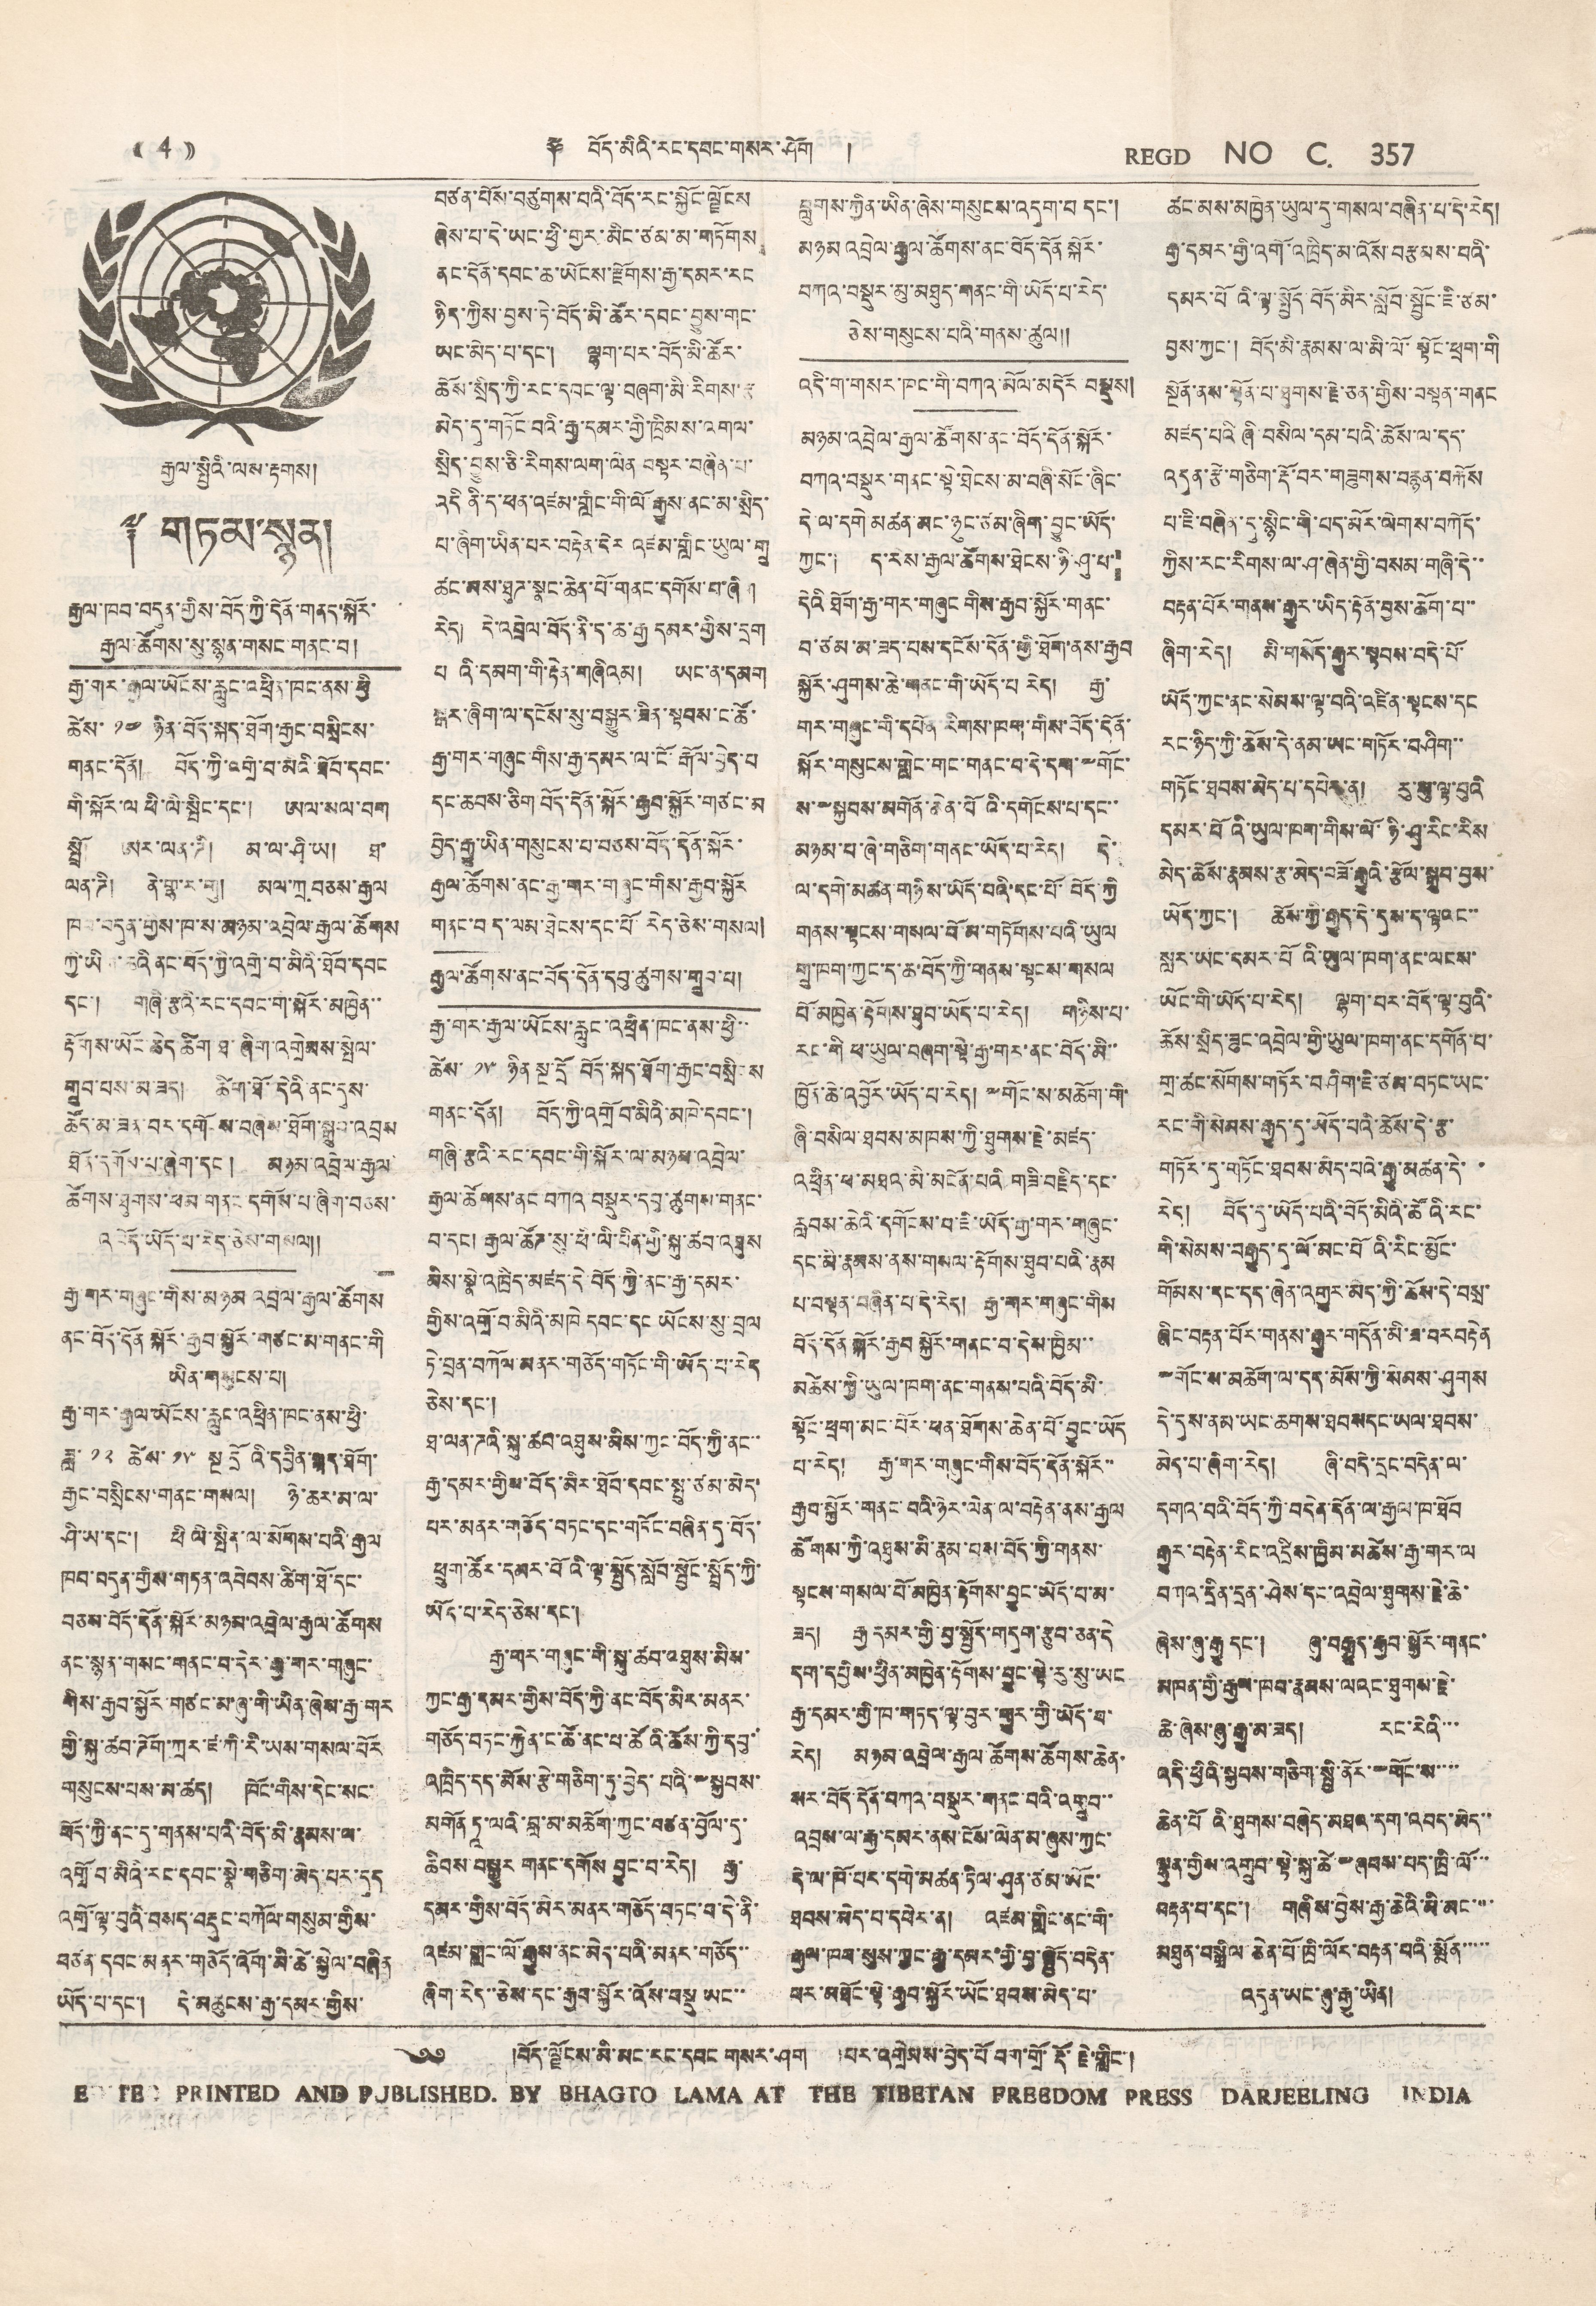(( 4 )) ༈ བོད་མིའི་རང་དབང་གསར་ཤོག ། REGD NO C. 357
རྒྱལ་སྤྱིའི་ལས་རྟགས།
༈ གཏམ་སྙན།
རྒྱལ་ཁབ་བདུན་གྱིས་བོད་ཀྱི་དོན་གནད་སྐོར་
རྒྱལ་ཚོགས་སུ་སྙན་གསང་གནང་བ།
རྒྱ་གར་རྒྱལ་ཡོངས་རླུང་འཕྲིན་ཁང་ནས་ཕྱི
ཚེས་ ༡༤ ཉིན་བོད་སྐད་ཐོག་རྒྱང་བསྲིངས་
གནང་དོན། བོད་ཀྱི་འགྲོ་བ་མིའི་ཐོབ་དབང་
གོ་སྐོར་ལ ཕི་ལི་སྤིང་དང་། ཨལ་སལ་བག
སྤྲོ། ཨར་ལན་ཌི། མ་ལ་ཤི་ཡ། ཐ་
ལན་ཌི། ནེ་གྷ་ར་གུ། མལ་ཀྲ་བཅས་རྒྱལ
ཁབ་བདུན་གྱིས་ཁ་ས་མཉམ་འབྲེལ་རྒྱལ་ཚོགས
ཀྱི་ཡིན་ཆའི་ནང་བོད་ཀྱི་འགྲོ་བ་མིའི་ཐོབ་དབང
དང་། གཞི་རྩའི་རང་དབང་གི་སྐོར་མཁྱེན་་
རྟོགས་ཡོང་ཆེད་ཚིག་ཐ་ཞིག་འགྲེམས་སྤེལ་
གྲུབ་པས་མ་ཟད། ཚིག་ཐོ་དེའི་ནང་དུས་
ཚོད་མ་ཟན་བར་དགོ ས་བཞེས་ཐོག་སྒྲུབ་འབྲས
ཐོན་དགོས་པ་ཞིག་དང ། མཉམ་འབྲེལ་རྒྱལ
ཚོགས་ཐུགས་ཕམ་གནང་དགོས་པ་ཞིག་བཅས་
འཁོད་ཡོད་པ་རེད་ཅེས་གསལ༎
རྒྱ་གར་གཞུང་གིས་མཉམ་འབྲེལ་རྒྱལ་ཚོགས
ནང་བོད་དོན་སྐོར་རྒྱབ་སྐྱོར་གཙང་མ་གནང་གི
ཡིན་གསུངས་པ།
རྒྱ་གར་རྒྱལ་ཡོངས་རླུང་འཕྲིན་ཁང་ནས་ཕྱི་
ཟླ་ ༡༢ ཚེས་ ༡༥ སྔ དྲོའི་དབྱིན་སྐད་ཐོག་
རྒྱང་བསྲིངས་གནང་གསལ། ཉེ་ཆར་མ་ལ་
ཤི་ཡ་དང་། ཕི ལི་སྤིན་ལ་སོགས་པའི་རྒྱལ
ཁབ་བདུན་གྱིས་གཏན་འབེབས་ཚིག་ཐོ་དང་
བཅས་བོད་དོན་སྐོར་མཉམ་འབྲེལ་རྒྱལ་ཚོགས
ནང་སྙན་གསང་གནང་བ་དེར་རྒྱ་གར་གཞུང་
གིས་རྒྱབ་སྐྱོར་གཙང་མ་ཞུ་གི་ཡིན་ཞེས་རྒྱ་གར
གྱི་སྐུ་ཚབ་ཌོག་ཀྲར་ཛ་ཀི་རི་ཡས་གསལ་བོར
གསུངས་པས་མ་ཚད། ཁོང་གིས་དེང་སང་
བོད་ཀྱི་ནང་དུ་གནས་པའི་བོད་མི་རྣམས་ལ་
འགྲོ་བ་མིའི་རང་དབང་སྣེ་གཅིག་མེ་དཔར་དུད
འགྲོ་ལྟ་བུའི་བསད་བརྡུང་བཀོལ་གསུམ་གྱིས་
བཙན་དབང་མནར་གཅོད་འོག་མི་ཚེ་སྐྱེལ་བཞིན
ཡོད་པ་དང་། དེ་མཚུངས་རྒྱ་དམར་གྱིས་
བཙན་པོས་བཙུགས་པའི་བོད་རང་སྐྱོང་ལྗོངས
ཞེས་པ་དེ་ཡང་ཕྱི་གྱར་མིང་ཙམ་མ་གཏོགས
ནང་དོན་དབང་ཆ་ཡོངས་རྫོགས་རྒྱ་དམར་རང་
ཉིད་ཀྱིས་བྱས་ཏེ་བོད་མི་ཚོར་དབང་བྱུས་གང་
ཡང་མེད་པ་དང་། ལྷག་པར་བོད་མི་ཚོར་
ཚོས་སྲིད་ཀྱི་རང་དབང་ལྟ་བཞག་མི་རིགས་རྩ
མེད་དུ་གཏོང་བའི་རྒྱ་དམར་གྱི་ཁྲིམས་འགལ་
སྲིད་བྱུས་ཅི་རིགས་ལག་ལེན བསྟར་བཞིན་པ་
འདི ནི་ད་ཕན་འཛམ་གླིང་གི་ལི་རྒྱུས་ནང་མ་སྲིད་
པ་ཞིག་ཡིན་པར་བརྟེན་དེར འཛམ་གླིང་ཡུལ་གྲུ
ཚང་མས་ཐུཌ་སྣང་ཆེན་པོ་གནང་དགོས་བ་ཞིག
རེད། དེ་འབྲེལ་བོད་ནི་ད་ཆ་རྒྱ་དམར་གྱིས་དྲག
པ འི་དམག་གི་རྟེན་གཞིའམ། ཡང་ན་དམག
སྒར་ཞིག་ལ་དངོས་སུ་བསྒྱུར་ཟིན་སྟབས་ང་ཚོ་
རྒྱ་གར་གཞུང་གིས་རྒྱ་དམར་ལ་ངོ་རྒོལ་བྱེད་པ
དང་ཆབས་ཅིག་བོད་དོན་སྐོར་རྒྱབ་སྐྱོར་གཙང་མ
བྱེད་རྒྱུ་ཡིན་གསུངས་པ་བཅས་བོད་དོན་སྐོར་
རྒྱལ་ཚོགས་ནང་རྒྱ་གར་གཞུང་གིས་རྒྱབ་སྐྱོར་
གནང་བ ད་ལམ་ཐེངས་དང་པོ་རེད་ཅེས་གསལ།
རྒྱལ་ཚོགས་ནང་བོད་དོན་དབུ་ཚུགས་གྲུབ་པ།
རྒྱ་གར་རྒྱལ་ཡོངས་རླུང་འཕྲིན་ཁང་ནས་ཕྱི་་
ཚེས་ ༡༥ ཉིན་སྔ་དྲོ བོད་སྐད་ཐོག་རྒྱང་བསྲིངས
གནང་དོན། བོད་ཀྱི་འགྲོ་བ་མིའི་མཁེ་དབང་།
གཞི་རྩའི་རང་དབང་གི་སྐོར་ལ་མཉམ་འབྲེལ་
རྒྱལ་ཚོགས་ནང་བཀའ་བསྡུར་དབུ་ཚུགས་གནང་
བ་དང་། རྒྱལ་ཚོཌ་སུ་ཕི་ལི་པིན་གྱི་སྐུ་ཚབ་འཐུས
མིས་སྣ་འཁྲིད་མཛད་དེ་བོད་ཀྱི་ནང་རྒྱ་དམར་
གྱིས་འགྲོ་བ་མིའི་མཁེ དབང་དང ཡོངས་སུ་བྲལ
ཏེ་བྲན་བཀོལ་མནར་གཅོད་གཏིང་གི་ཡོད་པ་རེད
ཅེས་དང་།
ཐ་ལན་ཌའི་སྐུ་ཚབ་འཐུས་མིས་ཀྱང་བོད་ཀྱི་ནང་་
རྒྱ་དམར་གྱིས་བོད་མིར་ཐོབ་དབང་སྤུ་ཙམ་མེད་
པར་མནར་གཅོད་བཏང་དང་གཏོང་བཞིན་དུ་བོད་
ཕྲུག་ཚོར་དམར་པོའི་ལྟ་སྤྱོད་སློབ་སྦྱོང་སྤྲོད་ཀྱི་
ཡོད་པ་རེད་ཅེས་དང་།
རྒྱ་གར་གཞུང་གི་སྐུ་ཚབ་འཐུས་མིས་
ཀྱང་རྒྱ་དམར་གྱིས་བོད་ཀྱི་ནང་བོད་མིར་མནར་
གཅོད་བཏང་རྐྱོན་ང་ཚོ་ནང་པ་ཚོའི་ཆོས་ཀྱི་དབུ་
འཁྲིད་དད་མོས་རྩེ་གཅིག་ཏུ་བྱེད་པའི་༸སྐྱབས་
མགོན་ཏཱ་ལའི་བླ་མ་མཆོག་ཀྱང་བཙན་བྱོལ་དུ་
ཆིབས་བསྒྱུར གནང་དགོས བྱུང་བ་རེད། རྒྱ་
དམར་གྱིས་བོད་མིར་མནར་གཅོད་བཏང་བ་དེ་ནི་
འཛམ་གླིང་ལོ་རྒྱུས་ནང་མེད་པའི་མནར་གཅོད་་
ཞིག་རེད་་ཅེས་དང་རྒྱབ་སྐྱོར་འོས་བསྡུ ཡང་་
བླུགས་ཀྱིན་ཡིན་ཞེས་གསུངས་འདུག་པ དང་།
མཉམ འབྲེལ་རྒྱལ་ཚོགས་ནང་བོད་དོན་སྐོར་
བཀའ་བསྡུར་མི་མཐུད་གནང་གི་ཡོད་པ་རེད་
ཅེས་གསུངས་པའི་གནས་ཚུལ།།
འདི་ག་གསར་ཁང་གི་བཀའ་མོལ་མདོར་བསྡུས།
མཉམ་འབྲེལ་རྒྱལ་ཚོགས་ནང་བོད་དོན་སྐོར་
བཀའ་བསྡུར་གནང་སྟེ་ཐེངས་མ་བཞི་སོང་ཞིང་
དེ་ལ་དགེ་མཚན་མང་ཉུང་ཙམ་ཞིག་བྱུང་ཡོད་
ཀྱང་། ད་རེས་རྒྱལ་ཚོགས་ཐེངས་ཉི་ཤུ་པ་
དེའི་ཐོག་རྒྱ་གར་གཞུང གིས་རྒྱབ་སྐྱོར་གནང་
བ་ཙམ་མ་ཟད་པས་དངོས་དོན་གྱོ་ཐོག་ནས་རྒྱབ
སྐྱོར་ཤུགས་ཆེ་གནང་གི་ཡོད་པ རེད། རྒྱ་
གར་གཞུང་གི་དཔོན་རིགས་ཁག་གིས་བོད་དོན་
སྐོར་གསུངས་གླེང་གང་དནང་བ་དེ་དག་༸གོང་
ས་༸སྐྱབས་མགོན་ཆེན་པོའི་དགོངས་པ་དང་་
མཉམ་པ་ཞེ་གཅིག་གནང་ཡོད་པ་རེད། དེ་
ལ་དགེ་མཚན་གཉིས་ཡོད་པའི་དང་པོ་བོད་ཀྱི
གནས་སྟངས་གསལ་བོ་མ་གཏོགས་པའི་ཡུལ
གྲུ་ཁག་ཀྱང་ད་ཆ་བོད་ཀྱི་གནས་སྟངས་གསལ
པོ་མཁྱེན་རྟོགས་ཐུབ་ཡོད་པ་རེད། གཉིས་པ་
རང་གི ཕ་ཡུལ་བཞག་སྟེ་རྒྱ་གར་ནང་བོད་མི་་
ཁྱོན་ཆེ་འབྱོར་ཡོད་པ་རེད། ༸གོང་ས་མཆོག་གི་
ཞི་བསིལ་ཐབས་མཁས་ཀྱི་ཐུགས་རྗེ་མཛད་
འཕྲིན་པ་མཐའ་མི་མངོན་པའི གཟི་བརྗིད་དང་
རླབས་ཆེའི་དགོངས་བ་ཇི་ཡོད་རྒྱ་གར་གཞུང་
དང་མི་རྣམས་ནས་གསལ་རྟོགས་ཐུབ་པའི་རྣམ
པ་བསྟན་བཞིན་པ་དེ་རེད། རྒྱ་གར་གཞུང་གིས
བོད་དོན་སྐོར་རྒྱབ་སྐྱོར་གནང་བ་དེས་ཁྱིམ་་
མཚེས་ཀྱི་ཡུལ་ཁག་ནང་གནས་པའི་བོད་མི་
སྟོང་ཕྲག་མང་པོར་ཕན་ཐོགས་ཆེན་པོ་བྱུང་ཡོད
པ་རེད། རྒྱ་གར་གཞུང་གིས་བོད་དོན་སྐོར་་
རྒྱབ་སྐྱོར་གནང་བའི་ཉེར་ལེན་པ་བརྟེན་ནས་རྒྱལ
ཚོགས་ཀྱི་འཐུས་མི་རྣམྤས་བོད་ཀྱི་གནས་
སྟངས་གསལ་པོ་མཁྱེན་རྟོགས་བྱུང་ཡོད་པ་མ་
ཟད། རྒྱ་དམར་གྱི་བྱ་སྤྱོད་གདུག་རྩུབ་ཅན་དེ
དག་དཔྱིས་ཕྱིན་མཁྱེན་རྟོགས་བྱུང་སྟེ་རུ་སུ་ཡང
རྒྱ་དམར་གྱི་ཁ་གཏད་ལྟ་བུར་གྱུར་གྱི་ཡོད་པ་
རེད། མཉམ་འབྲེལ་རྒྱལ་ཚོགས་ཚོགས་ཆེན་
སར་བོད་དོན་བཀའ་བསྡུར་གནང་བའི་འགྲུབ་་
འབྲས་ལ་རྒྱ་དམར་ནས་ངོས་ལེན་མ་ཞུས་ཀྱང་
དེ་ལ་ཁོ་པར་དགེ་མཚན་ཏིལ་ཤུན་ཙམ་ཡོང་
ཐབས་མེད་པ་དཔེར་ན། འཛམ་གླིང་ནང་གི་
རྒྱལ་ཁབ་སུས་ཀྱང་རྒྱ་དམར་གྱི་བྱ་སྤྱོད་བདེན་
པར་མཐོང་སྟེ་རྒྱབ་སྐྱོར་ཡོང་ཐབས་མེད་པ་
ཚང་མས་མཁྱེན་ཡུལ་དུ་གསལ་བཞིན་པ་དེ་རེད།
རྒྱ་དམར་གྱི་འགོ་འཁྲིད་མ་འོས་བརྩམས་པའི་
དམར་པོའི་ལྟ་སྤྱོད་བོད་མིར་སློབ་སྦྱོང་ཇི་ཙམ་
བྱས་ཀྱང་། བོད་མི་རྣམས་ལ་མི་ལོ་སྟོང་ཕྲག་གི
སྔོན་ནས་སྟོན་པ་ཐུགས་རྗེ་ཅན་གྱིས་བསྟན་གནང
མཛད་པའི ཞི་བསིལ་དམ་པའི་ཆོས་ལ་དད་
འདུན་རྩེ་གཅིག་རྡོ་བར་གཟུགས་བསྙན་བརྐོས
པ་ཇི་བཞིན་དུ་སྙིང་གི་པད་མོར་ལེགས་བཀོད་
ཀྱིས་རང་རིགས་ལ་ཤ་ཞེན་གྱི་བསམ་གཞི་དེ་་
བརྟན་པོར་གནས་རྒྱུར་ཡིད་རྟོན་བྱས་ཆོག་པ་་
ཞིག་རེད། མི་གསོད་རྒྱུར་སྟབས་བདེ་པོ་
ཡོད་ཀྱང་ནང་སེམས་ལྟ་བའི་འཛིན་སྟངས་དང
རང་ཉིད་ཀྱི་ཆོས་དེ་ནས་ཡང་གཏོར་བཤིག་་
གཏོང་ཐབས་མེད་པ་དཔེར་ན། རུ་སུ་ལྟ་བུའི
དམར་པོའི་ཡུལ་ཁག་གིས་ལོ་ཉི་ཤུ་རིང་རིས
མེད་ཆོས་རྣམས་རྩ་མེད་བཟོ་རྒྱུའི་རྩོལ་སྒྲུབ་བྱས་
ཡོད་ཀྱང་། ཆོས་ཀྱི་རྒྱུད་དེ་དུས་ད་ལྟའང་་
སླར་ཡང་དམར་པོའི་ཡུལ་ཁག་ནང་ལངས་
ཡོང་གི་ཡོད་པ་རེད། ལྷག་པར་བོད་ལྟ་བུའི་
ཆོས་སྲིད་ཟུང་འབྲེལ་གྱི་ཡུལ་ཁག་ནང་དགོན་པ་
གྲ་ཚང་སོགས་གཏོར་བཤིག་ཇི་ཙས་བཏང་ཡང་
རང་གི་སེམས་རྒྱུད་དུ་ཡོད་པའི་ཆོས་དེ་རྩ་
གཏོར་དུ་གཏོང་ཐབས་མེད་པའི་རྒྱུ་མཚན་དེ་ ་
རེད། བོད་དུ་ཡོད་པའི་བོད་མིའི་ཚོའི་རང་
གི་སེམས་བརྒྱུད་དུ་ལོ་མང་པོའི་རུང་མྱོང་
གོམས་དང་དད་ཞེན་འགྱུར་མེད་ཀྱི་ཆོས་དེ་བསྲ་
ཞིང་བརྟན་པོར་གནས་རྒྱུར་གདོན་མི་ཟ་བར་བརྟེན་
༸གོང་ས་མཆོག་ལ་དད་མོས་ཀྱིས་སེམས་ཤུགས
དེ་དུས་ནམ་ཡང་ཆགས་ཐབས དང་ཡལ་ཐབས་
མེད་པ་ཞིག་རེད། ཞི་བདེ་དྲང་བདེན་ལ་
དགའ་བའི་བོད་ཀྱི་བདེན་དོན་ལ་རྒྱལ་ཁ་ཐོབ
རྒྱུར་བརྟེན་རིང་འདྲིས་ཁྱིམ་མཚེས་རྒྱ་གར་ལ
བཀའ་དྲིན་དྲན་ཤེས་དནག་འབྲེལ་ཐུགས་རྗེ་ཆེ་
ཞེས་ཞུ་རྒྱུ དང་། ཞུ་བརྒྱུད་རྒྱབ་སྐྱོར་གནང་
མཁན་གྱི་རྒྱལ་ཁབ་རྣམས་ལའང་ཐུགས་རྗེ་
ཆེ་ཞེས་ཞུ་རྒྱུ་མ་ཟད། རང་རེའི་་་
འདི་ཕྱིའི་སྐྱབས་གཅིག་སྤྱི་ནོར་༸གོང་ས་་་་
ཆེན་པོའི་ཐུགས་བཞེད་མཐའ་དག་འབད་མེད་་
ལྷུན་གྱིས་འགྲུབ་སྟེ་སྐུ་ཚེ་༸ཞབས་པད་ཁྲི་ལོ་་་
བརྟན་པ་དང་། གཞིས་བྱེས་རྒྱ་ཆེའི་མི་མང་་་་
མཐུན་བསྒྲིལ་ཅེན་པོ་ཁྲི་ལོར་བརྟན་པའི་སྨོན་་་་་
འདུན་ཡང་ཞུ་རྒྱུ་ཡིན།
༄༅ །བོད་ལྗོངས་མི་མང་རང་དབང་གསར་ཤོག །པར་འགྲེམས་བྱེད་པོ་བག་གྲོ་རྡོ་རྗེ་གླིང་།
EDITED PRINTED AND PUBLISHED BY BHAGTO LAMA AT THE TIBETAN FREEDOM PRESS DARJEELING INDIA
